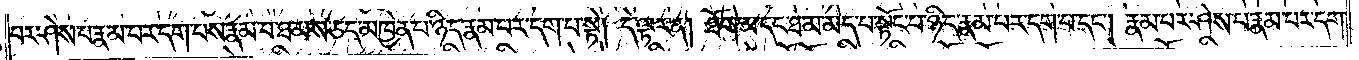པར་ཤེས་པ་རྣམ་པར་དག་པས་རྣམ་པ་ཐམས་ཅད་མཁྱེན་པ་ཉིད་རྣམ་པར་དག་པ་སྟེ། དེ་ལྟར་ན། ཐོག་མ་དང་ཐ་མ་མེད་པ་སྟོང་པ་ཉིད་རྣམ་པར་དག་པ་དང༌། རྣམ་པར་ཤེས་པ་རྣམ་པར་དག་
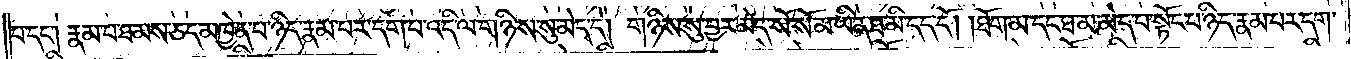པ་དང༌། རྣམ་པ་ཐམས་ཅད་མཁྱེན་པ་ཉིད་རྣམ་པར་དག་པ་འདི་ལ་གཉིས་སུ་མེད་དེ། གཉིས་སུ་བྱར་མེད་སོ་སོ་མ་ཡིན་ཐ་མི་དད་དོ། །ཐོག་མ་དང་ཐ་མ་མེད་པ་སྟོང་པ་ཉིད་རྣམ་པར་དག་
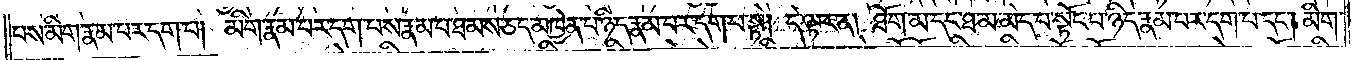པས་མིག་རྣམ་པར་དག་པ། མིག་རྣམ་པར་དག་པས་རྣམ་པ་ཐམས་ཅད་མཁྱེན་པ་ཉིད་རྣམ་པར་དག་པ་སྟེ། དེ་ལྟར་ན། ཐོག་མ་དང་ཐ་མ་མེད་པ་སྟོང་པ་ཉིད་རྣམ་པར་དག་པ་དང༌། མིག་
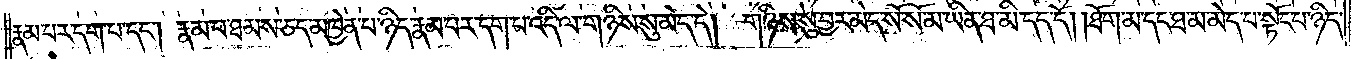རྣམ་པར་དག་པ་དང༌། རྣམ་པ་ཐམས་ཅད་མཁྱེན་པ་ཉིད་རྣམ་པར་དག་པ་འདི་ལ་གཉིས་སུ་མེད་དེ། གཉིས་སུ་བྱར་མེད་སོ་སོ་མ་ཡིན་ཐ་མི་དད་དོ། །ཐོག་མ་དང་ཐ་མ་མེད་པ་སྟོང་པ་ཉིད་
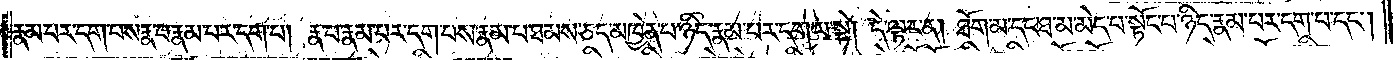རྣམ་པར་དག་པས་རྣ་བ་རྣམ་པར་དག་པ། རྣ་བ་རྣམ་པར་དག་པས་རྣམ་པ་ཐམས་ཅད་མཁྱེན་པ་ཉིད་རྣམ་པར་དག་པ་སྟེ། དེ་ལྟར་ན། ཐོག་མ་དང་ཐ་མ་མེད་པ་སྟོང་པ་ཉིད་རྣམ་པར་དག་པ་དང༌།
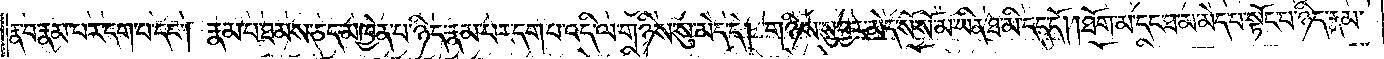རྣ་བ་རྣམ་པར་དག་པ་དང༌། རྣམ་པ་ཐམས་ཅད་མཁྱེན་པ་ཉིད་རྣམ་པར་དག་པ་འདི་ལ་གཉིས་སུ་མེད་དེ། གཉིས་སུ་བྱར་མེད་སོ་སོ་མ་ཡིན་ཐ་མི་དད་དོ། །ཐོག་མ་དང་ཐ་མ་མེད་པ་སྟོང་པ་ཉིད་རྣམ་
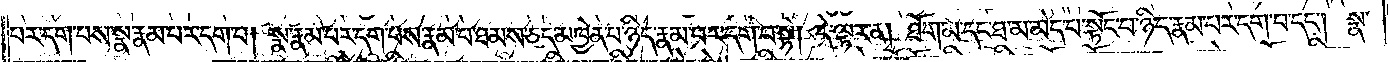པར་དག་པས་སྣ་རྣམ་པར་དག་པ། སྣ་རྣམ་པར་དག་པས་རྣམ་པ་ཐམས་ཅད་མཁྱེན་པ་ཉིད་རྣམ་པར་དག་པ་སྟེ། དེ་ལྟར་ན། ཐོག་མ་དང་ཐ་མ་མེད་པ་སྟོང་པ་ཉིད་རྣམ་པར་དག་པ་དང༌། སྣ་
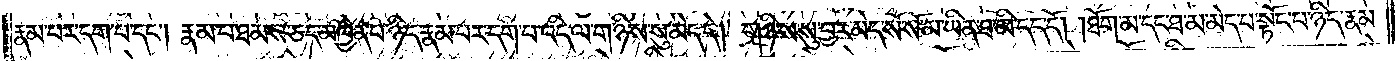རྣམ་པར་དག་པ་དང༌། རྣམ་པ་ཐམས་ཅད་མཁྱེན་པ་ཉིད་རྣམ་པར་དག་པ་འདི་ལ་གཉིས་སུ་མེད་དེ། གཉིས་སུ་བྱར་མེད་སོ་སོ་མ་ཡིན་ཐ་མི་དད་དོ། །ཐོག་མ་དང་ཐ་མ་མེད་པ་སྟོང་པ་ཉིད་རྣམ་
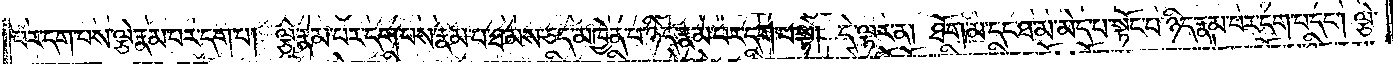པར་དག་པས་ལྕེ་རྣམ་པར་དག་པ། ལྕེ་རྣམ་པར་དག་པས་རྣམ་པ་ཐམས་ཅད་མཁྱེན་པ་ཉིད་རྣམ་པར་དག་པ་སྟེ། དེ་ལྟར་ན། ཐོག་མ་དང་ཐ་མ་མེད་པ་སྟོང་པ་ཉིད་རྣམ་པར་དག་པ་དང༌། ལྕེ་
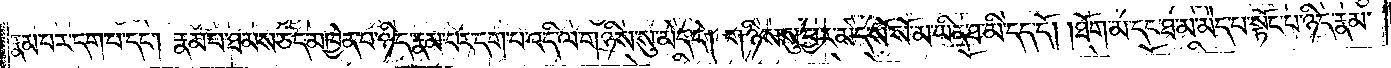རྣམ་པར་དག་པ་དང༌། རྣམ་པ་ཐམས་ཅད་མཁྱེན་པ་ཉིད་རྣམ་པར་དག་པ་འདི་ལ་གཉིས་སུ་མེད་དེ། གཉིས་སུ་བྱར་མེད་སོ་སོ་མ་ཡིན་ཐ་མི་དད་དོ། །ཐོག་མ་དང་ཐ་མ་མེད་པ་སྟོང་པ་ཉིད་རྣམ་
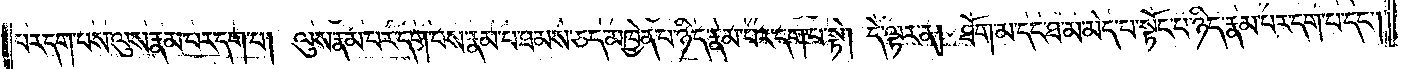པར་དག་པས་ལུས་རྣམ་པར་དག་པ། ལུས་རྣམ་པར་དག་པས་རྣམ་པ་ཐམས་ཅད་མཁྱེན་པ་ཉིད་རྣམ་པར་དག་པ་སྟེ། དེ་ལྟར་ན། ཐོག་མ་དང་ཐོག་མ་མེད་པ་སྟོང་པ་ཉིད་རྣམ་པར་དག་པ་དང༌།
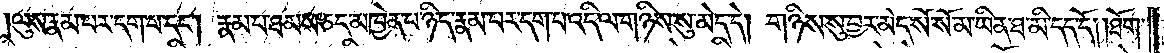ལུས་རྣམ་པར་དག་པ་དང༌། རྣམ་པ་ཐམས་ཅད་མཁྱེན་པ་ཉིད་རྣམ་པར་དག་པ་འདི་ལ་གཉིས་སུ་མེད་དེ། གཉིས་སུ་བྱར་མེད་སོ་སོ་མ་ཡིན་ཐ་མི་དད་དོ། །ཐོག་
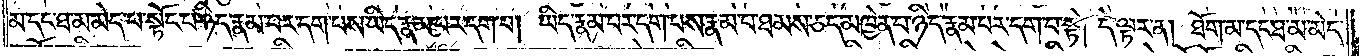མ་དང་ཐ་མ་མེད་པ་སྟོང་པ་ཉིད་རྣམ་པར་དག་པས་ཡིད་རྣམ་པར་དག་པ། ཡིད་རྣམ་པར་དག་པས་རྣམ་པ་ཐམས་ཅད་མཁྱེན་པ་ཉིད་རྣམ་པར་དག་པ་སྟེ། དེ་ལྟར་ན། ཐོག་མ་དང་ཐ་མ་མེད་
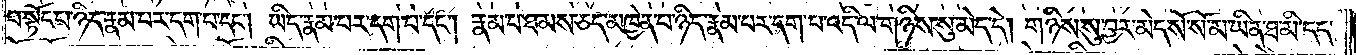པ་སྟོང་པ་ཉིད་རྣམ་པར་དག་པ་དང༌། ཡིད་རྣམ་པར་དག་པ་དང༌། རྣམ་པ་ཐམས་ཅད་མཁྱེན་པ་ཉིད་རྣམ་པར་དག་པ་འདི་ལ་གཉིས་སུ་མེད་དེ། གཉིས་སུ་བྱར་མེད་སོ་སོ་མ་ཡིན་ཐ་མི་དད་
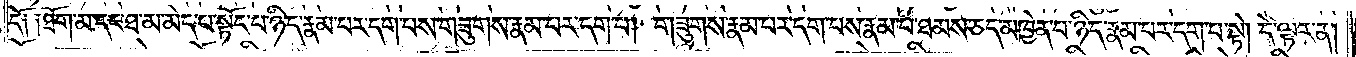དོ༑ ༑ཐོག་མ་དང་ཐ་མ་མེད་པ་སྟོང་པ་ཉིད་རྣམ་པར་དག་པས་གཟུགས་རྣམ་པར་དག་པ། གཟུགས་རྣམ་པར་དག་པས་རྣམ་པ་ཐམས་ཅད་མཁྱེན་པ་ཉིད་རྣམ་པར་དག་པ་སྟེ། དེ་ལྟར་ན།
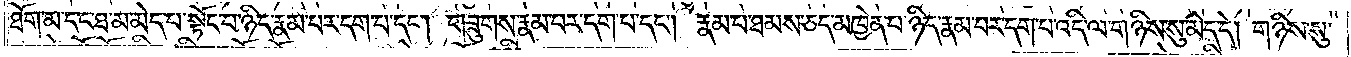ཐོག་མ་དང་ཐ་མ་མེད་པ་སྟོང་པ་ཉིད་རྣམ་པར་དག་པ་དང༌། གཟུགས་རྣམ་པར་དག་པ་དང༌། རྣམ་པ་ཐམས་ཅད་མཁྱེན་པ་ཉིད་རྣམ་པར་དག་པ་འདི་ལ་གཉིས་སུ་མེད་དེ། གཉིས་སུ་
